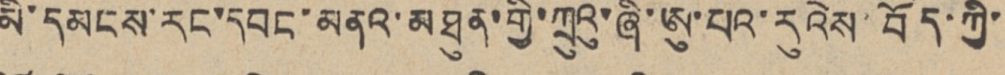མི་དམངས་རང་དབང་མནའ་མཐུན་གྱི་ཀྲུའུ་ཞི་ཨུ་པའ་རུའེས་བོད་ཀྱི་
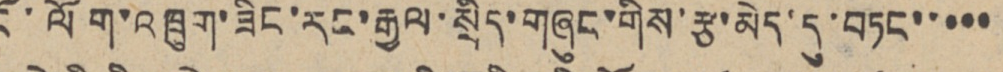ངོ་ལོག་འཁྲུག་ཟིང་རང་རྒྱལ་སྲིད་གཞུང་གིས་རྩ་མེད་དུ་བཏང་་་་་
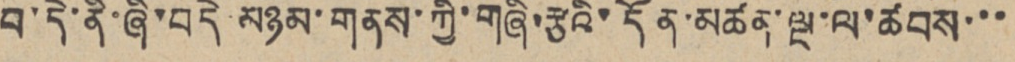བ་དེ་ནི་ཞི་བདེ་མཉམ་གནས་ཀྱི་གཞི་རྩའི་དོན་མཚན་ལྔ་ལ་ཚབས་་་
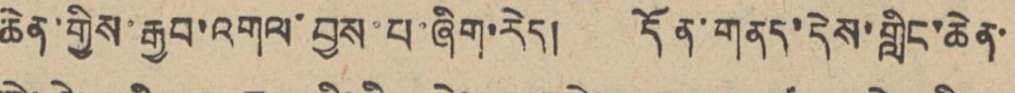ཆེན་གྱིས་རྒྱབ་འགལ་བྱས་པ་ཞིག་རེད། དོན་གནད་དེས་གླིང་ཆེན་
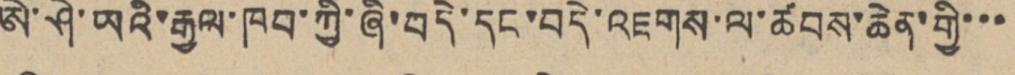ཨེ་ཤེ་ཡའི་རྒྱལ་ཁབ་ཀྱི་ཞི་བདེ་དང་བདེ་འཇགས་ལ་ཚབས་ཆེན་གྱི་་་
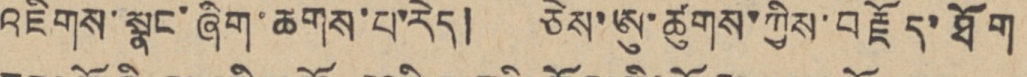འཇིགས་སྣང་ཞིག་ཆགས་པ་རེད། ཅེས་ཨུ་ཚུགས་ཀྱིས་བརྗོད་ཐོག
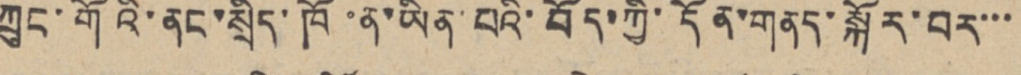ཀྲུང་གོའི་ནང་སྲིད་ཁོ་ན་ཡིན་པའི་བོད་ཀྱི་དོན་གནད་སྐོར་བར་་་
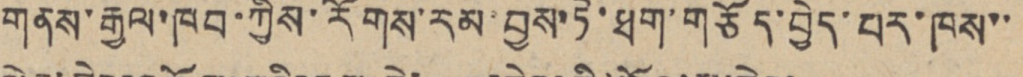གནས་རྒྱལ་ཁབ་ཀྱིས་རོགས་རམ་བྱས་ཏེ་ཐག་གཅོད་བྱེད་པར་ཁས་་
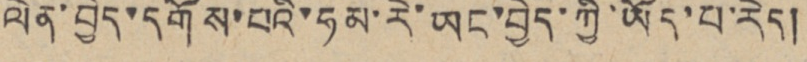ལེན་བྱེད་དགོས་པའི་ཧམ་རེ་ཡང་བྱེད་ཀྱི་ཡོད་པ་རེད།
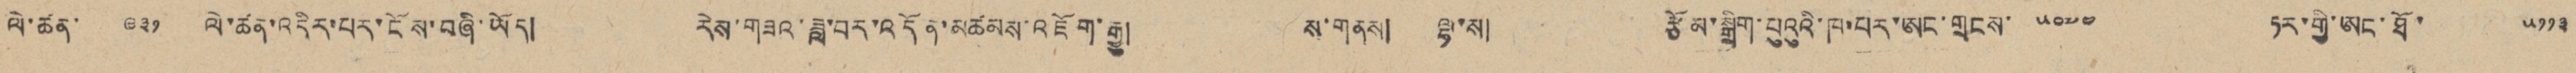ལེ་ཚན་ ༩༣༡ ལེ་ཚན་འདིར་པར་ངོས་བཞི་ཡོད། རེས་གཟའ་ཟླ་བར་འདོན་མཚམས་འཇོག་རྒྱུ། ས་གནས། ལྷ་ས། རྩོམ་སྒྲིག་པུའུའི་ཁ་པར་ཨང་གྲངས་ ༥༠༧༤ ཏར་གྱི་ཨང་ཐོ་ ༥༡༡༣
